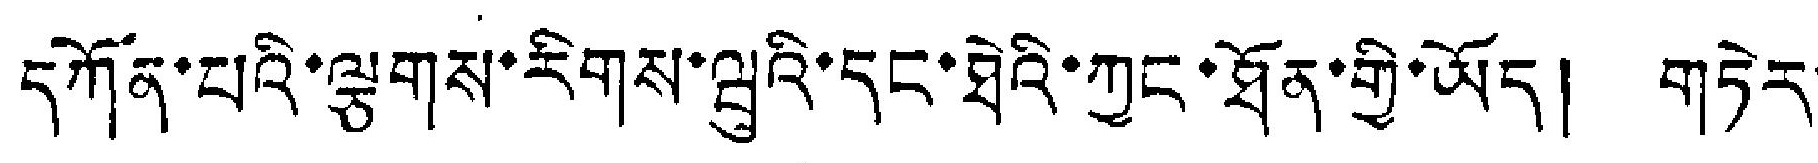དཀོན་པའི་ལྕགས་རིགས་ཝུའི་དང་ཐེའི་ཀྱང་ཐོན་གྱི་ཡོད། གཏེར་
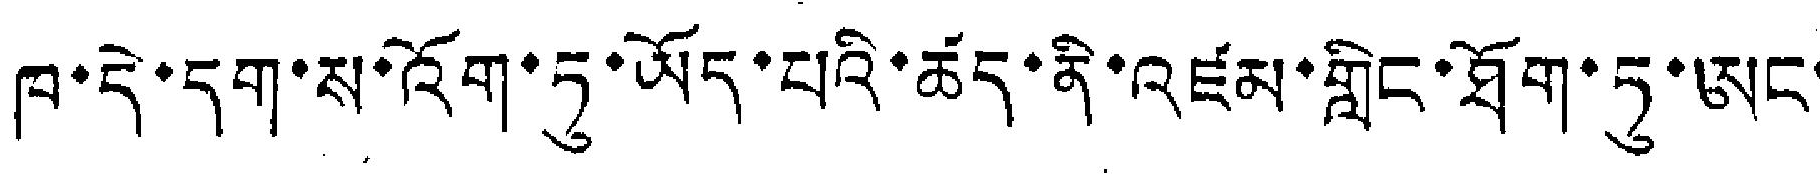ཁ་དེ་དག་ས་འོག་ཏུ་ཡོད་པའི་ཚད་ནི་འཛམ་གླིང་ཐོག་ཏུ་ཨང་
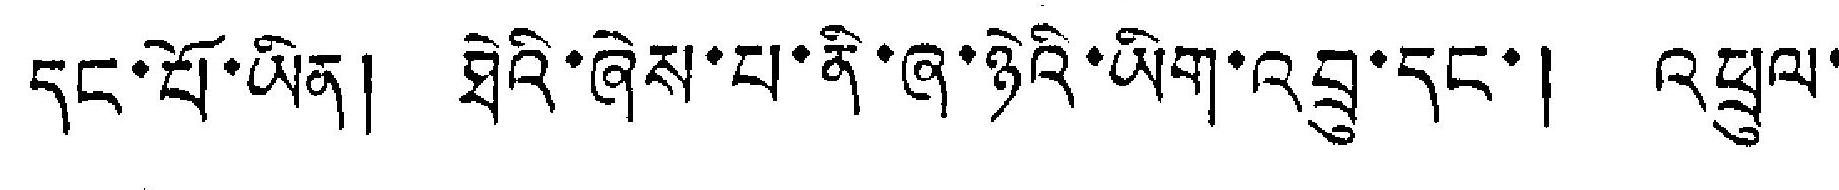དང་པོ་ཡིན། ཐེའི་ཞེས་པ་ནི་ཞ་ཉེའི་ཡིག་འབྲུ་དང་། འཕྲུལ་
